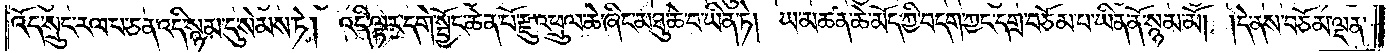འོད་སྲུང་རལ་པ་ཅན་འདི་སྙམ་དུ་སེམས་ཏེ། འདི་ལྟར་དགེ་སྦྱོང་ཆེན་པོ་རྫུ་འཕྲུལ་ཆེ་ཞིང་མཐུ་ཆེ་བ་ཡིན་ཏེ། ཡ་མཚན་ཆེ་མོད་ཀྱི་བདག་ཀྱང་དགྲ་བཅོམ་པ་ཡིན་ནོ་སྙམ་མོ། །དེ་ནས་བཅོམ་ལྡན་
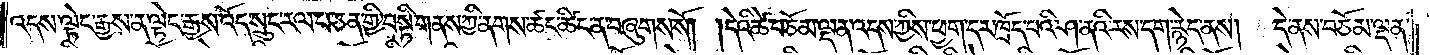འདས་ལྟེང་རྒྱས་ན་ལྟེང་རྒྱས་འོད་སྲུང་རལ་པ་ཅན་གྱི་བསྟི་གནས་ཀྱི་ནགས་ཚང་ཚིང་ན་བཞུགས་སོ། །དེའི་ཚེ་བཅོམ་ལྡན་འདས་ཀྱིས་ཕྱག་དར་ཁྲོད་པའི་ཤ་ནའི་རས་དག་རྙེད་ནས། དེ་ནས་བཅོམ་ལྡན་
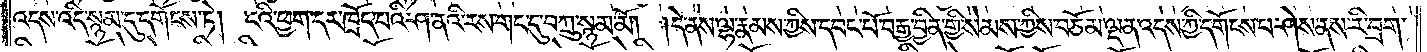འདས་འདི་སྙམ་དུ་དགོངས་ཏེ། ངའི་ཕྱག་དར་ཁྲོད་པའི་ཤ་ནའི་རས་གང་དུ་བཀྲུ་སྙམ་མོ། །དེ་ནས་ལྷ་རྣམས་ཀྱིས་དབང་པོ་བརྒྱ་བྱིན་གྱི་སེམས་ཀྱིས་བཅོམ་ལྡན་འདས་ཀྱི་དགོངས་པ་ཤེས་ནས་རི་བྲག་
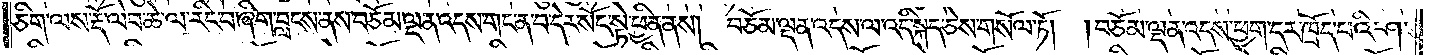ཅིག་ལས་རྡོ་ལེབ་ཆེ་ལ་རིང་བ་ཞིག་བླངས་ནས་བཅོམ་ལྡན་འདས་གང་ན་བ་དེར་སོང་སྟེ་ཕྱིན་ནས། བཅོམ་ལྡན་འདས་ལ་འདི་སྐད་ཅེས་གསོལ་ཏོ། །བཅོམ་ལྡན་འདས་ཕྱག་དར་ཁྲོད་པའི་ཤ་
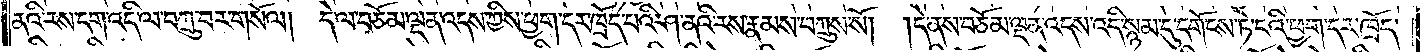ནའི་རས་དག་འདི་ལ་བཀྲུ་བར་གསོལ། དེ་ལ་བཅོམ་ལྡན་འདས་ཀྱིས་ཕྱག་དར་ཁྲོད་པའི་ཤ་ནའི་རས་རྣམས་བཀྲུས་སོ། །དེ་ནས་བཅོམ་ལྡན་འདས་འདི་སྙམ་དུ་དགོངས་ཏེ་ངའི་ཕྱག་དར་ཁྲོད་
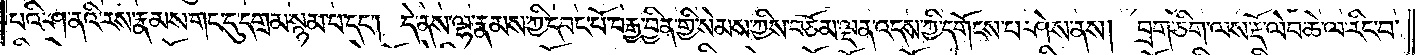པའི་ཤ་ནའི་རས་རྣམས་གང་དུ་དགྲམ་སྙམ་པ་དང༌། དེ་ནས་ལྷ་རྣམས་ཀྱི་དབང་པོ་བརྒྱ་བྱིན་གྱི་སེམས་ཀྱིས་བཅོམ་ལྡན་འདས་ཀྱི་དགོངས་པ་ཤེས་ནས། བྲག་ཅིག་ལས་རྡོ་ལེབ་ཆེ་ལ་རིང་བ་
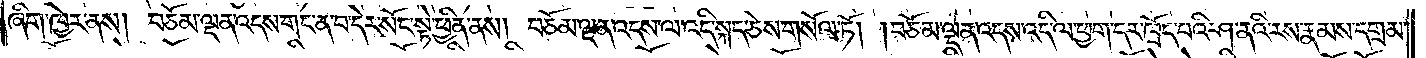ཞིག་ཁྱེར་ནས། བཅོམ་ལྡན་འདས་གང་ན་བ་དེར་སོང་སྟེ་ཕྱིན་ནས། བཅོམ་ལྡན་འདས་ལ་འདི་སྐད་ཅེས་གསོལ་ཏོ། །བཅོམ་ལྡན་འདས་འདི་ལ་ཕྱག་དར་ཁྲོད་པའི་ཤ་ནའི་རས་རྣམས་དགྲམ་
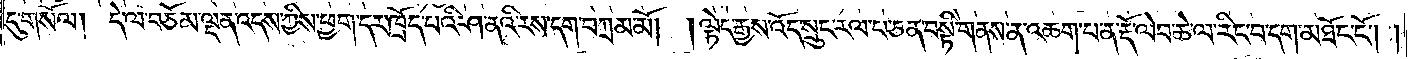དུ་གསོལ། དེ་ལ་བཅོམ་ལྡན་འདས་ཀྱིས་ཕྱག་དར་ཁྲོད་པའི་ཤ་ནའི་རས་དག་བཀྲམ་མོ། །ལྟེང་རྒྱས་འོད་སྲུང་རལ་པ་ཅན་བསྟི་གནས་ན་འཆག་པ་ན་རྡོ་ལེབ་ཆེ་ལ་རིང་བ་དག་མཐོང་ངོ༌། །
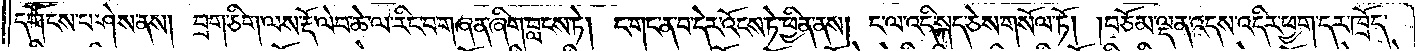དགོངས་པ་ཤེས་ནས། བྲག་ཅིག་ལས་རྡོ་ལེབ་ཆེ་ལ་རིང་བ་གཞན་ཞིག་བླངས་ཏེ། ང་གང་ན་བ་དེར་འོངས་ཏེ་ཕྱིན་ནས། ང་ལ་འདི་སྐད་ཅེས་གསོལ་ཏོ། །བཅོམ་ལྡན་འདས་འདིར་ཕྱག་དར་ཁྲོད་
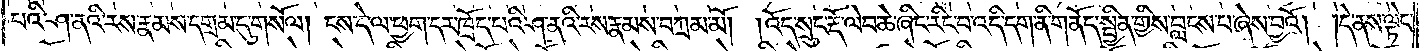པའི་ཤ་ནའི་རས་རྣམས་དགྲམ་དུ་གསོལ། ངས་དེ་ལ་ཕྱག་དར་ཁྲོད་པའི་ཤ་ནའི་རས་རྣམས་བཀྲམ་མོ། །འོད་སྲུང་རྡོ་ལེབ་ཆེ་ཞིང་རིང་བ་འདི་དག་ནི་གནོད་སྦྱིན་གྱིས་བླངས་པ་ཞེས་བྱའོ། །དེ་ནས་ལྟེང་
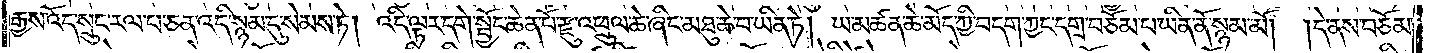རྒྱས་འོད་སྲུང་རལ་པ་ཅན་འདི་སྙམ་དུ་སེམས་ཏེ། འདི་ལྟར་དགེ་སྦྱོང་ཆེན་པོ་རྫུ་འཕྲུལ་ཆེ་ཞིང་མཐུ་ཆེ་བ་ཡིན་ཏེ། ཡ་མཚན་ཆེ་མོད་ཀྱི་བདག་ཀྱང་དགྲ་བཅོམ་པ་ཡིན་ནོ་སྙམ་མོ། །དེ་ནས་བཅོམ་
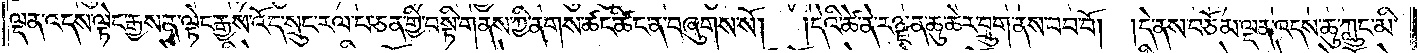ལྡན་འདས་ལྟེང་རྒྱས་ན་ལྟེང་རྒྱས་འོད་སྲུང་རལ་པ་ཅན་གྱི་བསྟི་གནས་ཀྱི་ནགས་ཚང་ཚིང་ན་བཞུགས་སོ།<gap>།དེའི་ཚེ་ནེ་རཉྫ་ན་ཆུ་ཆེར་བྲུག་ནས་བབ་བོ། །དེ་ནས་བཅོམ་ལྡན་འདས་ཆུ་ཀླུང་མི་
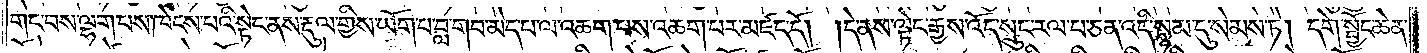གང་བས་ལྷག་པས་ཁེངས་པའི་སྟེང་ནས་རྡུལ་གྱིས་ཡོག་པ་བླ་གབ་མེད་པ་ལ་འཆག་པས་འཆག་པར་མཛད་དོ། །དེ་ནས་ལྟེང་རྒྱས་འོད་སྲུང་རལ་པ་ཅན་འདི་སྙམ་དུ་སེམས་ཏེ། དགེ་སྦྱོང་ཆེན་
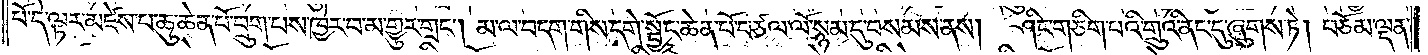པོ་དེ་ལྟར་མཛེས་པ་ཆུ་ཆེན་པོ་བྲུག་པས་ཁྱེར་བ་མ་གྱུར་གྲང༌། མ་ལ་བདག་གིས་དགེ་སྦྱོང་ཆེན་པོ་བཙལ་ལོ་སྙམ་དུ་བསམས་ནས། ཤིང་གཅིག་པའི་གྲུའི་ནང་དུ་ཞུགས་ཏེ། བཅོམ་ལྡན་
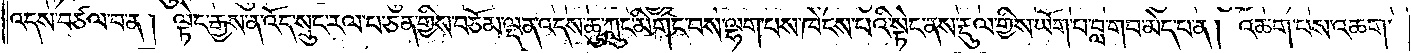འདས་བཙལ་པ་ན། ལྟེང་རྒྱས་ན་འོད་སྲུང་རལ་པ་ཅན་གྱིས་བཅོམ་ལྡན་འདས་ཆུ་ཀླུང་མི་གང་བས་ལྷག་པས་ཁེངས་པའི་སྟེང་ནས་རྡུལ་གྱིས་ཡོག་པ་བླ་གབ་མེད་པ་ན། འཆག་པས་འཆག་
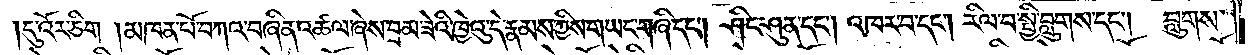།དུ་འོར་ཅིག །མཁན་པོ་བཀའ་བཞིན་འཚལ་ཞེས་བྲམ་ཟེའི་ཁྱེའུ་དེ་རྣམས་ཀྱིས་གཡང་གཞི་དང༌། ཤིང་ཤུན་དང༌། འཁར་བ་དང༌། རིལ་བ་སྤྱི་བླུགས་དང༌།  བླུགས་
